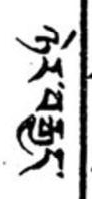ཉེར་བརྒྱད་
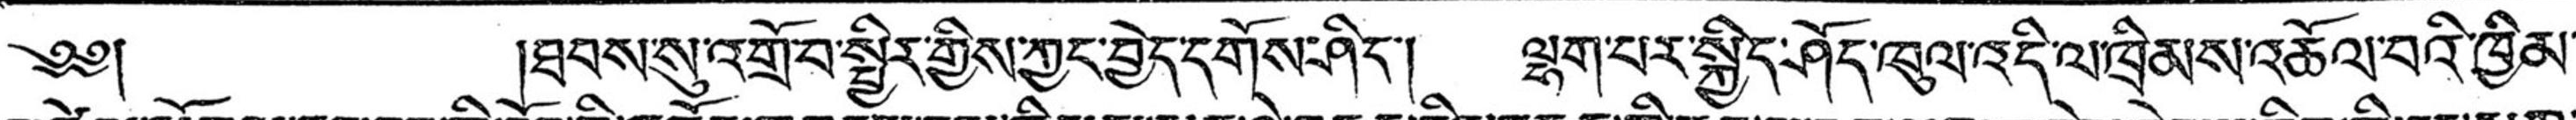༄༅། །ཐབས་སུ་འགྲོ་བ་སྤྱིར་གྱིས་ཀྱང་བྱེད་དགོས་ཤིང་། ལྷག་པར་སྐྱིད་ཤོད་ཁུལ་འདི་ལ་ཁྲིམས་འཆོལ་བའི་ཁྱིམ་
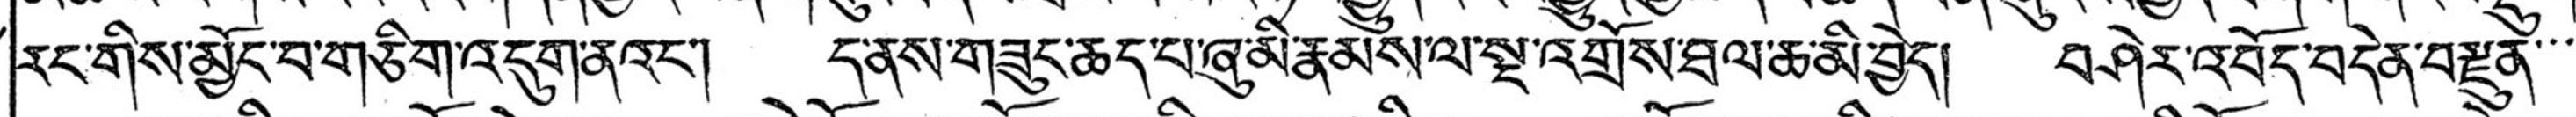རང་གིས་མྱོང་བ་གཅིག་འདུག་ནའང་། ད་ནས་གཟུང་ཆད་པ་ཞུ་མི་རྣམས་ལ་སྔ་འགྲོས་ཐལ་ཆ་མི་བྱེད། བཤེར་འབོད་བདེན་བརྫུན་་་་
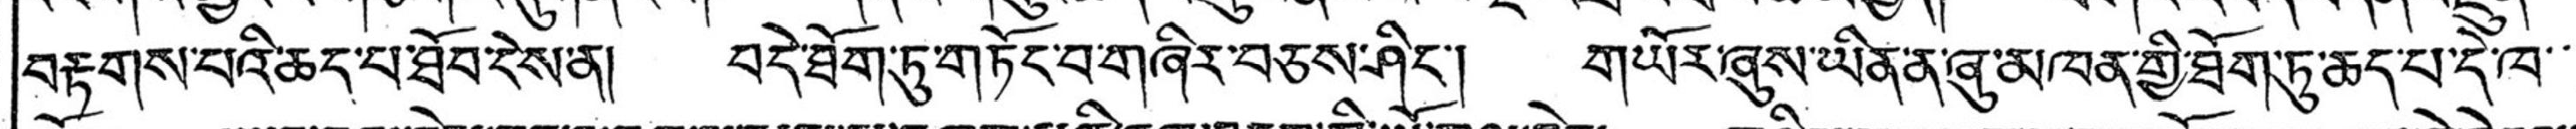བརྟགས་པའི་ཆད་པ་ཐོབ་ངེས་ན། བདེ་ཐོག་ཏུ་གཏོང་བ་གཞིར་བཅས་ཤིང་། གཡོར་ཞུས་ཡིན་ན་ཞུ་མཁན་གྱི་ཐོག་ཏུ་ཆད་པ་དེ་ཁ་་་
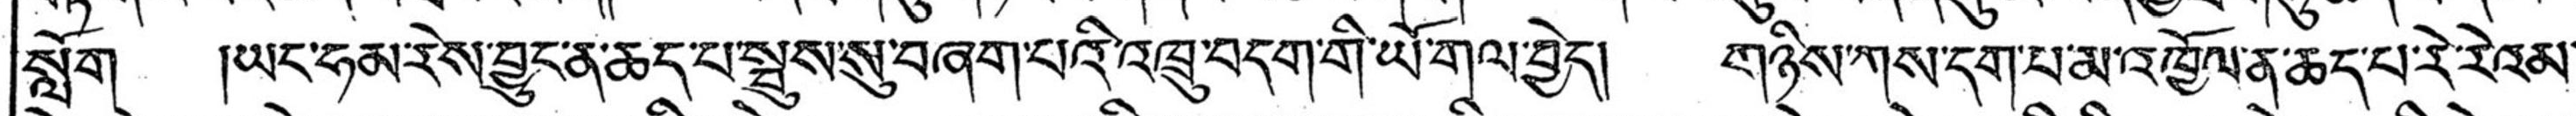སློག །ཡང་ཧམ་རེས་བྱུང་ན་ཆད་པ་སྦུས་སུ་བཞག་པའི་འཁྲུ་བདག་གི་ཡོ་གལ་བྱེད། གཉིས་ཀས་དག་པ་མ་འཁྱོལ་ན་ཆད་པ་རེ་རེའམ་་
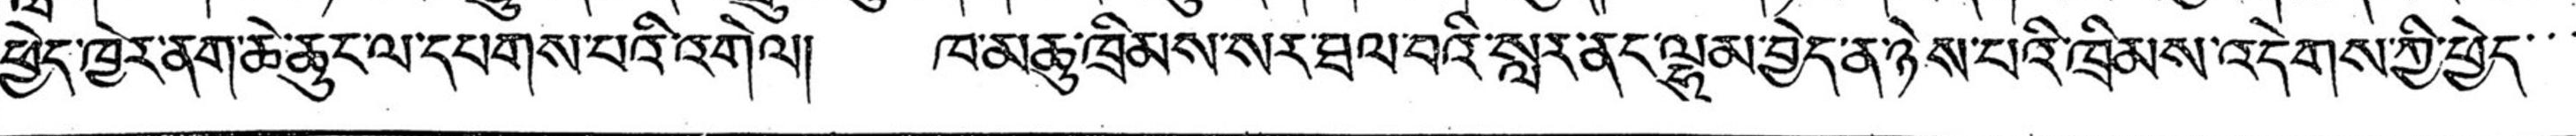ཕྱེད་ཁྱེར་ནག་ཆེ་ཆུང་ལ་དཔགས་པའི་འགེལ། ཁ་མཆུ་ཁྲིམས་སར་ཐལ་བའི་སླར་ནང་ལྷུམ་བྱེད་ན་ཉེས་པའི་ཁྲིམས་འདེགས་ཀྱི་ཕྱེད་་་་
